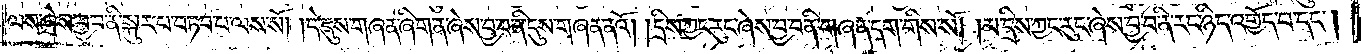ལས་ཞེས་བྱ་བ་ནི་སྐུར་བ་བཏབ་པ་ལས་སོ། །དེ་དུས་གཞན་ཞིག་ན་ཞེས་བྱ་བ་ནི་དུས་གཞན་ནའོ། །དྲིས་ཀྱང་རུང་ཞེས་བྱ་བ་ནི་གཞན་དག་གིས་སོ། །མ་དྲིས་ཀྱང་རུང་ཞེས་བྱ་བ་ནི་རང་ཉིད་འགྱོད་པ་དང༌།
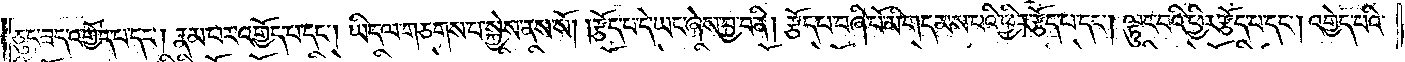ཅུང་ཟད་འགྱོད་པ་དང༌། རྣམ་པར་འགྱོད་པ་དང༌། ཡིད་ལ་གཅགས་པ་སྐྱེས་ནས་སོ། །རྩོད་པ་དེ་ཡང་ཞེས་བྱ་བ་ནི། རྩོད་པ་བཞི་པོ་མི་གདམས་པའི་ཕྱིར་རྩོད་པ་དང༌། ལྟུང་བའི་ཕྱིར་རྩོད་པ་དང༌། འགྱེད་པའི་
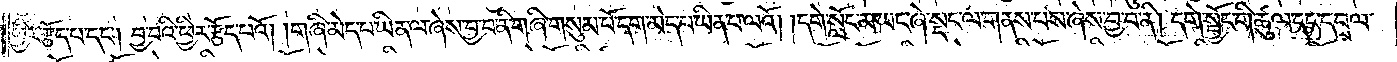ཕྱིར་རྩོད་པ་དང༌། བྱ་བའི་ཕྱིར་རྩོད་པའོ། །གཞི་མེད་པ་ཡིན་ལ་ཞེས་བྱ་བ་ནི་གཞི་གསུམ་པོ་དག་མེད་པ་ཡིན་པ་ལའོ། །དགེ་སློང་མ་ཡང་ཞེ་སྡང་ལ་གནས་པས་ཞེས་བྱ་བ་ནི། དགེ་སྦྱོང་གི་ཚུལ་དང་དབྲལ་
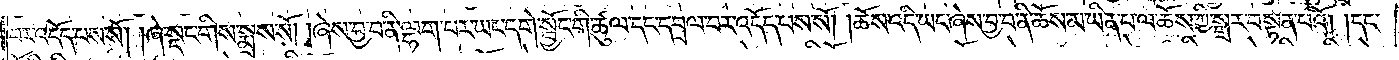བར་འདོད་པས་སོ། །ཞེ་སྡང་གིས་སྨྲས་སོ། །ཞེས་བྱ་བ་ནི་ལྷག་པར་ཡང་དགེ་སྦྱོང་གི་ཚུལ་དང་དབྲལ་བར་འདོད་པས་སོ། །ཆོས་འདི་ཡང་ཞེས་བྱ་བ་ནི་ཆོས་མ་ཡིན་པ་ལ་ཆོས་ཀྱི་སྒྲར་བསྟན་པའོ། །དང་
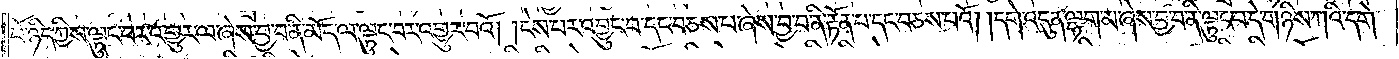པོ་ཉིད་ཀྱིས་ལྟུང་བར་འགྱུར་ལ་ཞེས་བྱ་བ་ནི་མོད་ལ་ལྟུང་བར་འགྱུར་བའོ། །ངེས་པར་འབྱུང་བ་དང་བཅས་པ་ཞེས་བྱ་བ་ནི་རྟོན་པ་དང་བཅས་པའོ། །དགེ་འདུན་ལྷག་མ་ཞེས་བྱ་བ་ནི་ལྟུང་བ་དེ་གཉིས་ཀའི་དགེ་
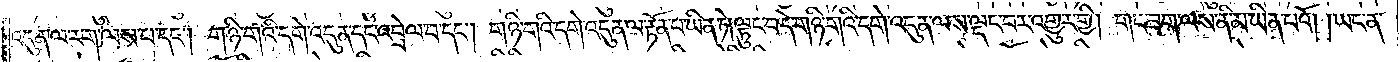འདུན་ལ་རག་ལས་པ་དང༌། གཉི་གའི་དགེ་འདུན་དང་འབྲེལ་བ་དང༌། གཉི་གའི་དགེ་འདུན་ལ་རྟོན་པ་ཡིན་ཏེ།ལྟུང་བ་དེ་གཉི་གའི་དགེ་འདུན་ལས་ལྡང་པར་འགྱུར་གྱི། གང་ཟག་ལས་ནི་མ་ཡིན་པའོ། །ཡང་ན་
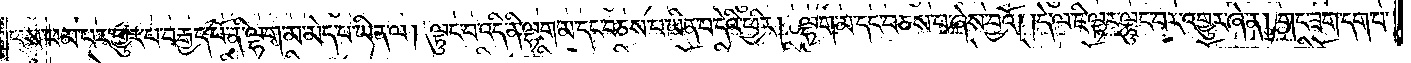ཕས་ཕམ་པར་གྱུར་པ་བརྒྱད་པོ་ནི་ལྷག་མ་མེད་པ་ཡིན་ལ། ལྟུང་བ་འདི་ནི་ལྷག་མ་དང་བཅས་པ་ཡིན་པ་དེའི་ཕྱིར། ལྷག་མ་དང་བཅས་པ་ཞེས་བྱའོ། །དེ་ལ་ཇི་ལྟར་ལྟུང་བར་འགྱུར་ཞེ་ན། གང་ཟག་དག་པ་
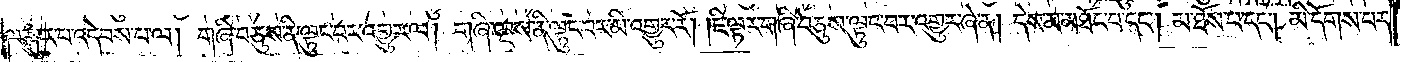ལ་སྐུར་བ་འདེབས་པ་ལ། གཞི་བཅུས་ནི་ལྟུང་བར་འགྱུར་ལ། གཞི་ལྔས་ནི་ལྟུང་བར་མི་འགྱུར་རོ། །ཇི་ལྟར་གཞི་བཅུས་ལྟུང་བར་འགྱུར་ཞེ་ན། དེས་མ་མཐོང་བ་དང༌། མ་ཐོས་པ་དང༌། མི་དོགས་པར་
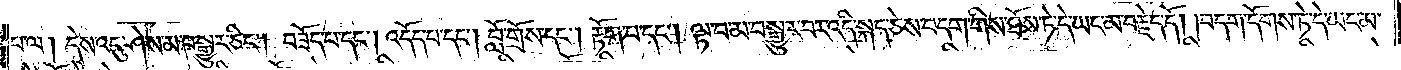པ་ལ། དེས་འདུ་ཤེས་མ་བསྒྱུར་ཅིང༌། བཟོད་པ་དང༌། འདོད་པ་དང༌། བློ་གྲོས་དང༌། རྟོག་པ་དང༌། ལྟ་བ་མ་བསྒྱུར་བར་འདི་སྐད་ཅེས་བདག་གིས་ཐོས་ཏེ་དེ་ཡང་མ་བརྗེད་དོ། །བདག་དོགས་ཏེ་དེ་ཡང་མ་
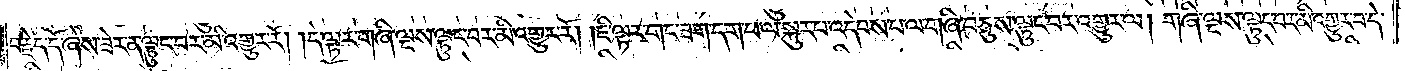བརྗེད་དོ་ཞེས་ཟེར་ན་ལྟུང་བར་མི་འགྱུར་རོ། །དེ་ལྟར་གཞི་ལྔས་ལྟུང་བར་མི་འགྱུར་རོ། །ཇི་ལྟར་གང་ཟག་དག་པ་ལ་སྐུར་པ་འདེབས་པ་ལ་གཞི་བཅུས་ལྟུང་བར་འགྱུར་ལ། གཞི་ལྔས་ལྟུང་བར་མི་འགྱུར་བ་དེ་
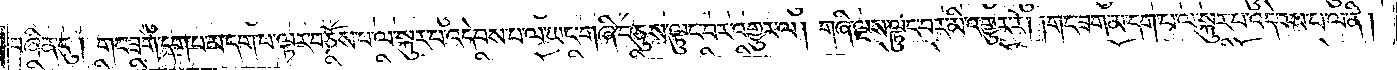བཞིན་དུ། གང་ཟག་དག་པ་མ་དག་པ་ལྟར་བཅོས་པ་ལ་སྐུར་པ་འདེབས་པ་ལ་ཡང་གཞི་བཅུས་ལྟུང་བར་འགྱུར་ལ། གཞི་ལྔས་ལྟུང་བར་མི་འགྱུར་རོ། །གང་ཟག་མ་དག་པ་ལ་སྐུར་པ་འདེབས་པ་ལ་ནི།
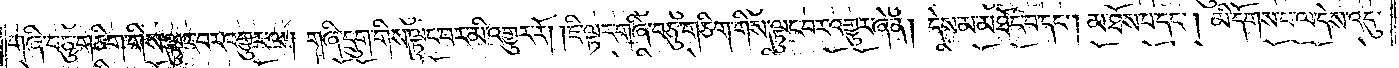གཞི་བཅུ་གཅིག་གིས་ལྟུང་བར་འགྱུར་ལ། གཞི་དྲུག་གིས་ལྟུང་བར་མི་འགྱུར་རོ། །ཇི་ལྟར་གཞི་བཅུ་གཅིག་གིས་ལྟུང་བར་འགྱུར་ཞེ་ན། དེས་མ་མཐོང་བ་དང༌། མ་ཐོས་པ་དང༌། མི་དོགས་པ་ལ་དེས་འདུ་
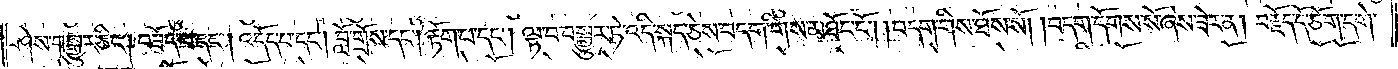ཤེས་བསྒྱུར་ཅིང༌། བཟོད་པ་དང༌། འདོད་པ་དང༌། བློ་གྲོས་དང༌། རྟོག་པ་དང༌། ལྟ་བ་བསྒྱུར་ཏེ་འདི་སྐད་ཅེས་བདག་གིས་མཐོང་ངོ༌། །བདག་གིས་ཐོས་སོ། །བདག་དོགས་སོ་ཞེས་ཟེར་ན། བརྗོད་དོ་ཅོག་དགེ་
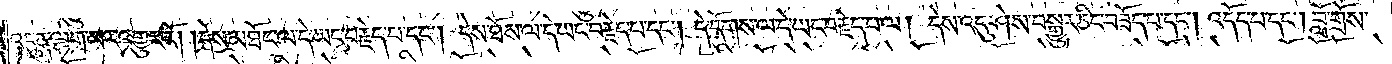འདུན་ལྷག་མར་འགྱུར་རོ། །དེས་མཐོང་ལ་དེ་ཡང་བརྗེད་པ་དང༌། དེས་ཐོས་ལ་དེ་ཡང་བརྗེད་པ་དང༌། དེ་དོགས་ལ་དེ་ཡང་བརྗེད་པ་ལ། དེས་འདུ་ཤེས་བསྒྱུར་ཅིང་བཟོད་པ་དང༌། འདོད་པ་དང༌། བློ་གྲོས་
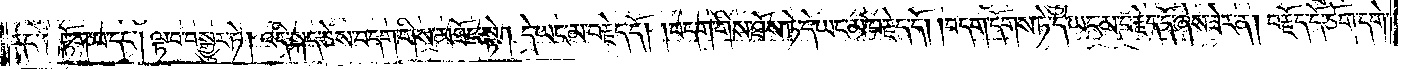དང་༑ རྟོག་པ་དང༌། ལྟ་བ་བསྒྱུར་ཏེ། འདི་སྐད་ཅེས་བདག་གིས་མཐོང་སྟེ། དེ་ཡང་མ་བརྗེད་དོ། །བདག་གིས་ཐོས་ཏེ་དེ་ཡང་མ་བརྗེད་དོ། །བདག་དོགས་ཏེ་དེ་ཡང་མ་བརྗེད་དོ་ཞེས་ཟེར་ན། བརྗོད་དོ་ཅོག་དགེ་
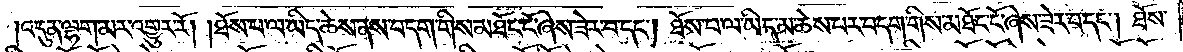འདུན་ལྷག་མར་འགྱུར་རོ། །ཐོས་པ་ལ་ཡིད་ཆེས་ནས་བདག་གིས་མཐོང་ངོ་ཞེས་ཟེར་བ་དང༌། ཐོས་པ་ལ་ཡིད་མ་ཆེས་པར་བདག་གིས་མཐོང་ངོ་ཞེས་ཟེར་བ་དང༌། ཐོས་
